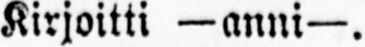Kirjoitti —anni—.
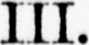III.
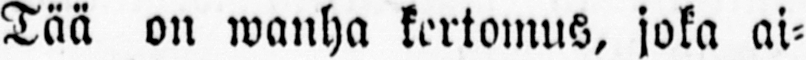Tää on wanha kertomus, joka ai-
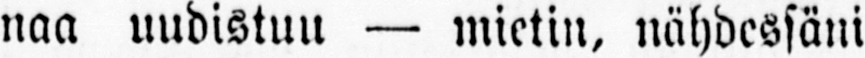naa uudistuu — mietin, nähdessäni
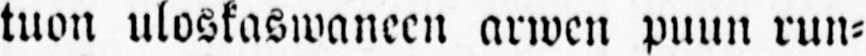tuon uloskaswaneen arwen puun run-
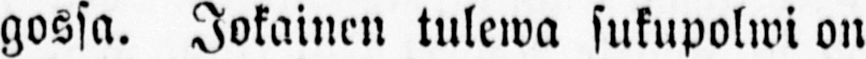gossa. Jokainen tulewa sukupolwi on
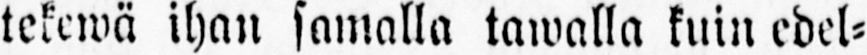tekewä ihan samalla tawalla kuin edel-
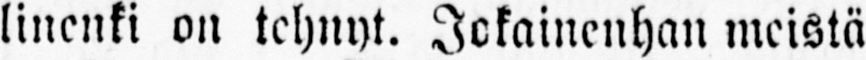linenki on tehnyt. Jokainenhan meistä
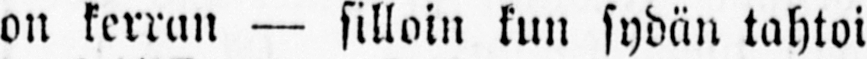on kerran — silloin kun sydän tahtoi
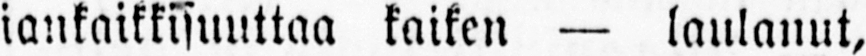iankaikkisuuttaa kaiken — laulanut,
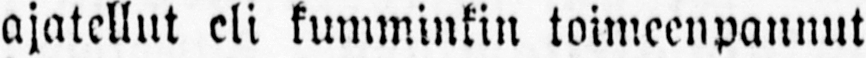ajatellut eli kumminkin toimeenpannut
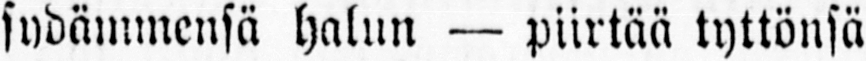sydämmensä halun — piirtää tyttönsä
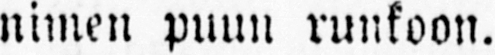nimen puun runkoon.
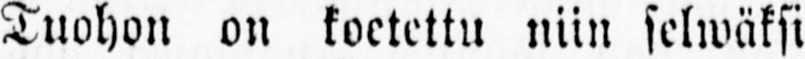Tuohon on koetettu niin selwäksi
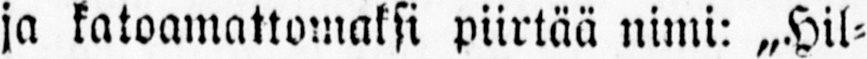ja katoamattomaksi piirtää nimi: „Hil-
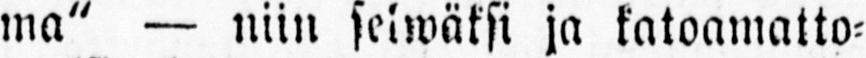ma" — niin selwäksi ja katoamatto-
